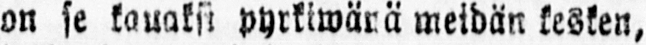on se kauaksi pyrkiwänä meidän kesken,
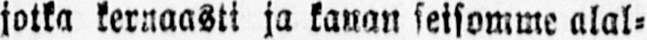jotka kernaasti ja kauan seisomme alal-
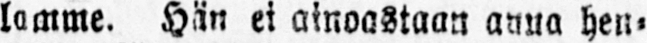lamme. Hän ei ainoastaan anna hen-
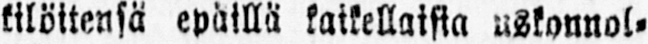kilöitensä epäillä kaikellaisia uskonnol-
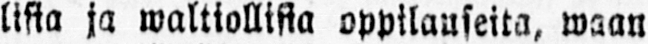lisia ja waltiollisia oppilauseita, waan
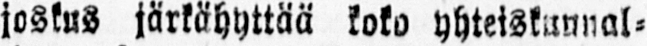joskus järkähyttää koko yhteiskunnal-
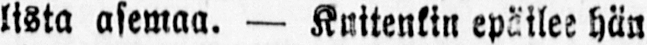lista asemaa. — Kuitenkin epäilee hän
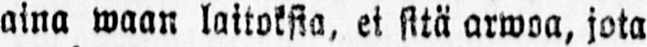aina maan laitoksia, ei sitä arwoa, jota
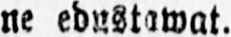ne edustawat.
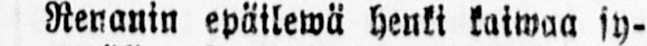Renanin epäilewä henki kaiwaa sy-
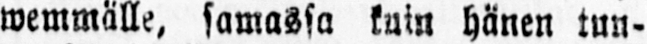wemmälle, samassa kuin hänen tun-
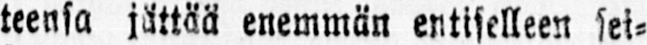teensa jättää enemmän entiselleen sei-
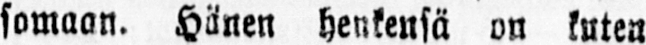somaan. Hänen henkensä on kuten
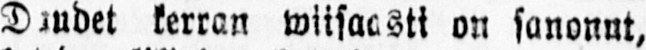Diudet kerran wiisaasti on sanonut,
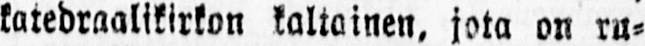katedraalikirkon kaltainen, jota on ru-
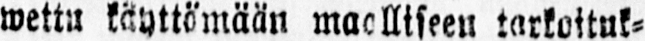wettu käyttömään maalliseen tarkoituk-
